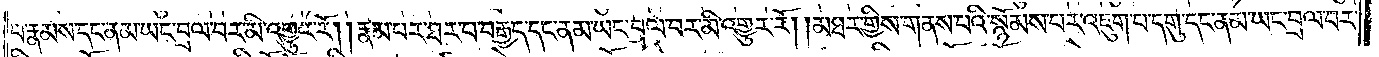པ་རྣམས་དང་ནམ་ཡང་བྲལ་བར་མི་འགྱུར་རོ། །རྣམ་པར་ཐར་པ་བརྒྱད་དང་ནམ་ཡང་བྲལ་བར་མི་འགྱུར་རོ། །མཐར་གྱིས་གནས་པའི་སྙོམས་པར་འཇུག་པ་དགུ་དང་ནམ་ཡང་བྲལ་བར་
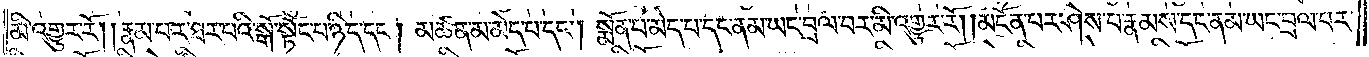མི་འགྱུར་རོ། །རྣམ་པར་ཐར་པའི་སྒོ་སྟོང་པ་ཉིད་དང༌། མཚན་མ་མེད་པ་དང༌། སྨོན་པ་མེད་པ་དང་ནམ་ཡང་བྲལ་བར་མི་འགྱུར་རོ། །མངོན་པར་ཤེས་པ་རྣམས་དང་ནམ་ཡང་བྲལ་བར་
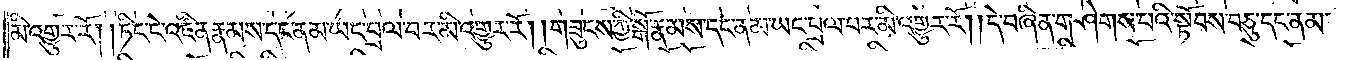མི་འགྱུར་རོ། །ཏིང་ངེ་འཛིན་རྣམས་དང་ནམ་ཡང་བྲལ་བར་མི་འགྱུར་རོ། །གཟུངས་ཀྱི་སྒོ་རྣམས་དང་ནམ་ཡང་བྲལ་བར་མི་འགྱུར་རོ། །དེ་བཞིན་གཤེགས་པའི་སྟོབས་བཅུ་དང་ནམ་
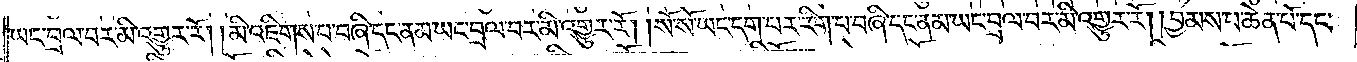ཡང་བྲལ་བར་མི་འགྱུར་རོ། །མི་འཇིགས་པ་བཞི་དང་ནམ་ཡང་བྲལ་བར་མི་འགྱུར་རོ། །སོ་སོ་ཡང་དག་པར་རེག་པ་བཞི་དང་ནམ་ཡང་བྲལ་བར་མི་འགྱུར་རོ། །བྱམས་པ་ཆེན་པོ་དང་
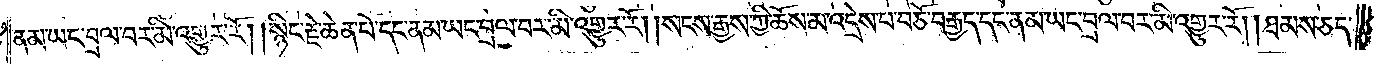ནམ་ཡང་བྲལ་བར་མི་འགྱུར་རོ། །སྙིང་རྗེ་ཆེན་པོ་དང་ནམ་ཡང་བྲལ་བར་མི་འགྱུར་རོ། །སངས་རྒྱས་ཀྱི་ཆོས་མ་འདྲེས་པ་བཅོ་བརྒྱད་དང་ནམ་ཡང་བྲལ་བར་མི་འགྱུར་རོ། །ཐམས་ཅད་
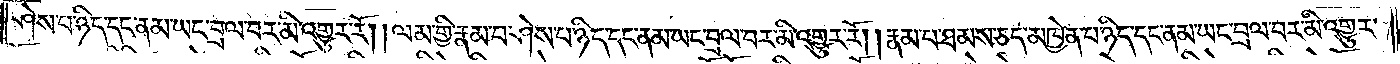ཤེས་པ་ཉིད་དང་ནམ་ཡང་བྲལ་བར་མི་འགྱུར་རོ། །ལམ་གྱི་རྣམ་པ་ཤེས་པ་ཉིད་དང་ནམ་ཡང་བྲལ་བར་མི་འགྱུར་རོ། །རྣམ་པ་ཐམས་ཅད་མཁྱེན་པ་ཉིད་དང་ནམ་ཡང་བྲལ་བར་མི་འགྱུར་
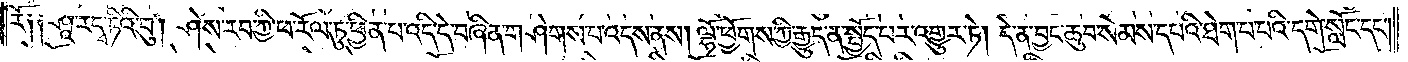རོ༑ ༑ཤཱ་རདྭ་ཏིའི་བུ། ཤེས་རབ་ཀྱི་ཕ་རོལ་ཏུ་ཕྱིན་པ་འདི་དེ་བཞིན་གཤེགས་པ་འདས་ནས། ལྷོ་ཕྱོགས་ཀྱི་རྒྱུད་ན་སྤྱོད་པར་འགྱུར་ཏེ། དེ་ན་བྱང་ཆུབ་སེམས་དཔའི་ཐེག་པ་པའི་དགེ་སློང་དང༌།
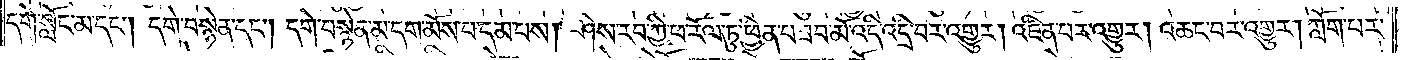དགེ་སློང་མ་དང༌། དགེ་བསྙེན་དང༌། དགེ་བསྙེན་མ་དག་མོས་པ་དམ་པས། ཤེས་རབ་ཀྱི་ཕ་རོལ་ཏུ་ཕྱིན་པ་ཟབ་མོ་འདི་འདྲི་བར་འགྱུར། འཛིན་པར་འགྱུར། འཆང་བར་འགྱུར། ཀློག་པར་
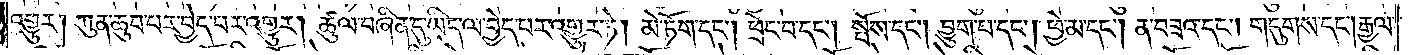འགྱུར། ཀུན་ཆུབ་པར་བྱེད་པར་འགྱུར། ཚུལ་བཞིན་དུ་ཡིད་ལ་བྱེད་པར་འགྱུར་ཏེ། མེ་ཏོག་དང༌། ཕྲེང་བ་དང༌། སྤོས་དང༌། བྱུག་པ་དང༌། ཕྱེ་མ་དང༌། ན་བཟའ་དང༌། གདུགས་དང༌། རྒྱལ་
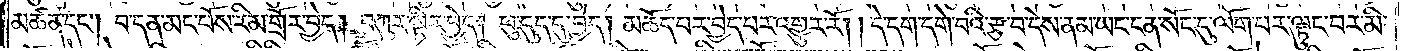མཚན་དང༌། བ་དན་མང་པོས་རིམ་གྲོར་བྱེད། བཀུར་སྟིར་བྱེད། ཕུ་དུད་དུ་བྱེད། མཆོད་པར་བྱེད་པར་འགྱུར་རོ། །དེ་དག་དགེ་བའི་རྩ་བ་དེས་ནམ་ཡང་ངན་སོང་དུ་ལོག་པར་ལྟུང་བར་མི་
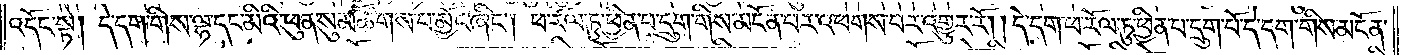འདོང་སྟེ། དེ་དག་གིས་ལྷ་དང་མིའི་ཕུན་སུམ་ཚོགས་པ་མྱོང་ཞིང༌། ཕ་རོལ་ཏུ་ཕྱིན་པ་དྲུག་གིས་མངོན་པར་འཕགས་པར་འགྱུར་རོ། །དེ་དག་ཕ་རོལ་ཏུ་ཕྱིན་པ་དྲུག་པོ་དེ་དག་གིས་མངོན་
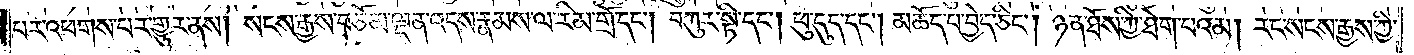པར་འཕགས་པར་གྱུར་ནས། སངས་རྒྱས་བཅོམ་ལྡན་འདས་རྣམས་ལ་རིམ་གྲོ་དང༌། བཀུར་སྟི་དང༌། ཕུ་དུད་དང༌། མཆོད་པ་བྱེད་ཅིང༌། ཉན་ཐོས་ཀྱི་ཐེག་པའམ། རང་སངས་རྒྱས་ཀྱི་
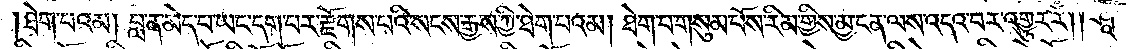ཐེག་པའམ། བླ་ན་མེད་པ་ཡང་དག་པར་རྫོགས་པའི་སངས་རྒྱས་ཀྱི་ཐེག་པའམ། ཐེག་པ་གསུམ་པོས་རིམ་གྱིས་མྱ་ངན་ལས་འདའ་བར་འགྱུར་རོ། །ཤཱ་
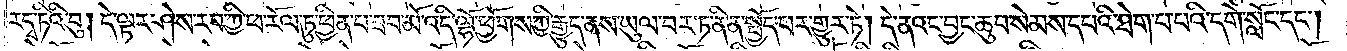ར་དྭ་ཏིའི་བུ། དེ་ལྟར་ཤེས་རབ་ཀྱི་ཕ་རོལ་ཏུ་ཕྱིན་པ་ཟབ་མོ་འདི་ལྷོ་ཕྱོགས་ཀྱི་རྒྱུད་ནས་ཡུལ་བར་ཏ་ནི་ན་སྤྱོད་པར་གྱུར་ཏེ། དེ་ནའང་བྱང་ཆུབ་སེམས་དཔའི་ཐེག་པ་པའི་དགེ་སློང་དང༌།
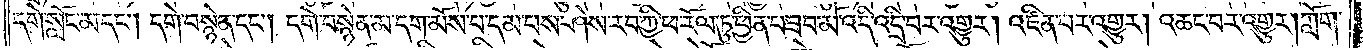དགེ་སློང་མ་དང༌། དགེ་བསྙེན་དང༌། དགེ་བསྙེན་མ་དག་མོས་པ་དམ་པས་ཤེས་རབ་ཀྱི་ཕ་རོལ་ཏུ་ཕྱིན་པ་ཟབ་མོ་འདི་འདྲི་བར་འགྱུར། འཛིན་པར་འགྱུར། འཆང་བར་འགྱུར། ཀློག་
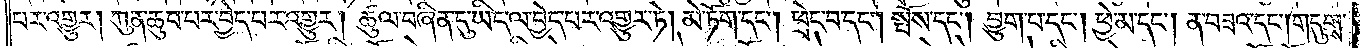པར་འགྱུར། ཀུན་ཆུབ་པར་བྱེད་པར་འགྱུར། ཚུལ་བཞིན་དུ་ཡིད་ལ་བྱེད་པར་འགྱུར་ཏེ། མེ་ཏོག་དང༌། ཕྲེང་བ་དང༌། སྤོས་དང༌། བྱུག་པ་དང༌། ཕྱེ་མ་དང༌། ན་བཟའ་དང༌། གདུགས་
